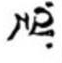ལྔ་
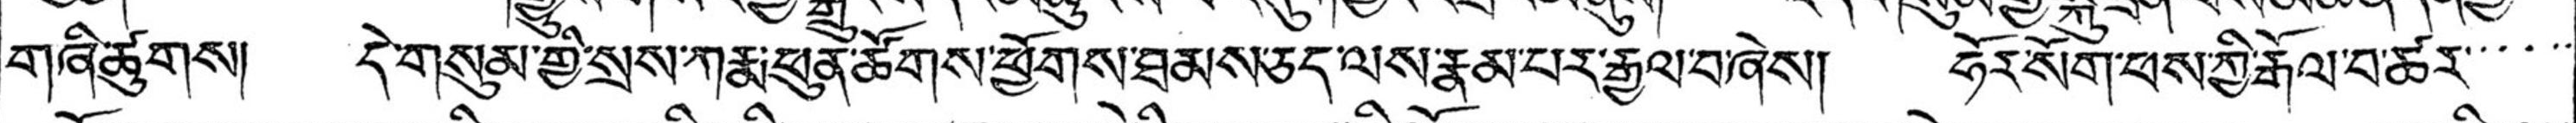གཞི་ཚུགས། དེ་གསུམ་གྱི་སྲས་ཀརྨ་ཕུན་ཚོགས་ཕྱོགས་ཐམས་ཅད་ལས་རྣམ་པར་རྒྱལ་བ་ཞེས། ཧོར་སོག་ཕས་ཀྱི་རྒོལ་བ་ཚར་་་་་་
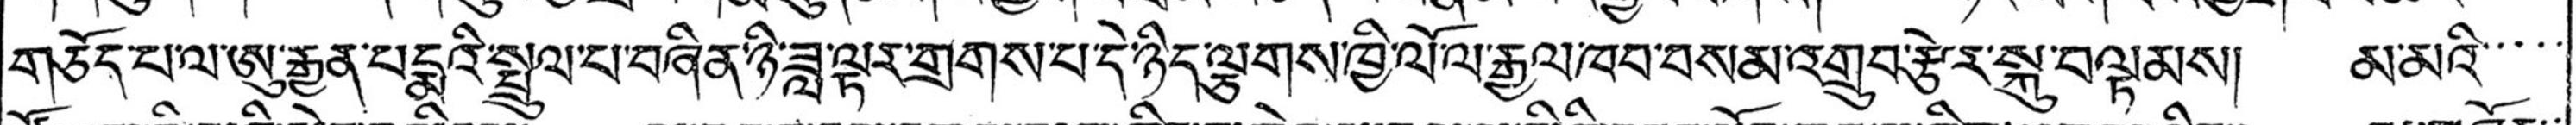གཅོད་པ་ལ་ཨུ་རྒྱན་པདྨའི་སྤྲུལ་པ་བཞིན་ཉི་ཟླ་ལྟར་གྲགས་པ་དེ་ཉིད་ལྕགས་ཁྱི་ལོ་ལ་རྒྱལ་ཁབ་བསམ་འགྲུབ་རྩེར་སྐུ་བལྟམས། མ་མའི་་་་་
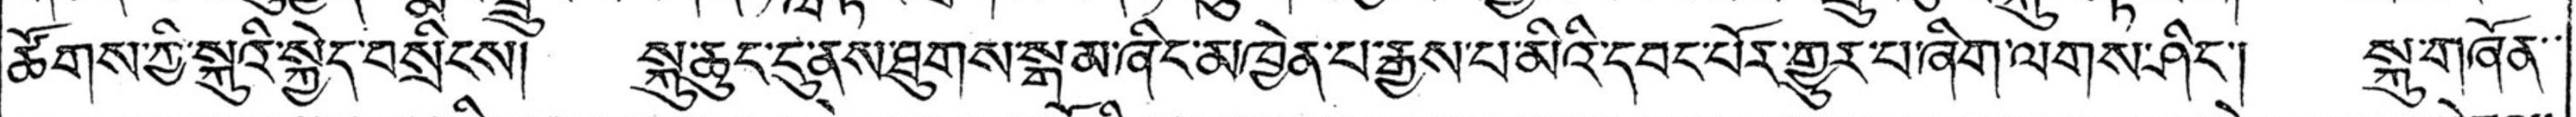ཚོགས་ཀྱི་སྐུའི་སྐྱེད་བསྲིངས། སྐུ་ཆུང་ངུ་ནས་ཐུགས་སྒམ་ཞིང་མཁྱེན་པ་རྒྱས་པ་མིའི་དབང་པོར་གྱུར་པ་ཞིག་ལགས་ཤིང་། སྐུ་གཞོན་་
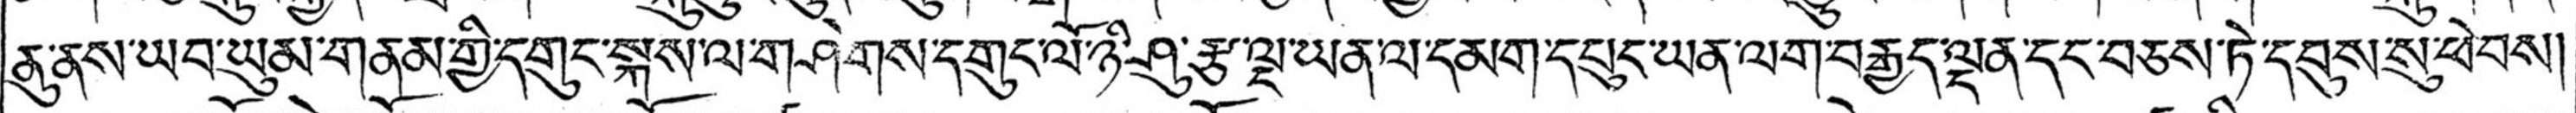ནུ་ནས་ཡབ་ཡུམ་གནམ་གྱི་དགུང་སྐས་ལ་གཤེགས་དགུང་ལོ་ཉི་ཤུ་རྩ་ལྔ་ཡན་ལ་དམག་དཔུང་ཡན་ལག་བརྒྱད་ལྡན་དང་བཅས་ཏེ་དབུས་སུ་ཕེུབས།
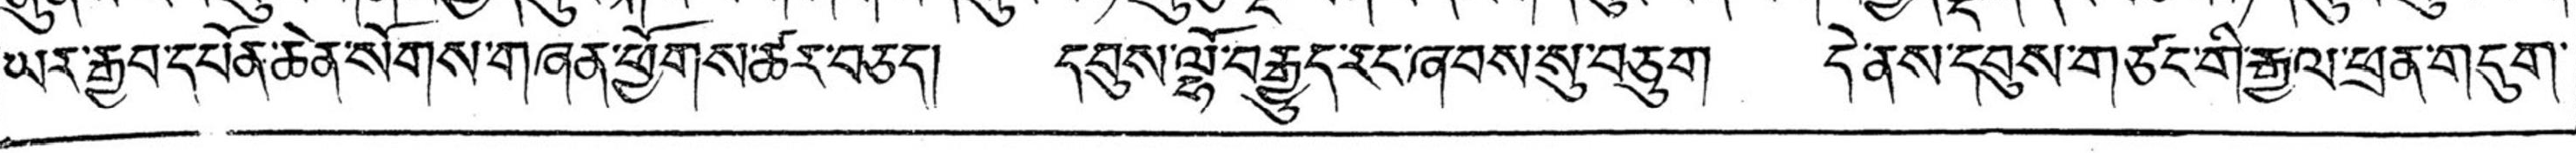ཡར་རྒྱབ་དཔོན་ཆེན་སོགས་གཞན་ཕྱོགས་ཚར་བཅད། དབུས་ལྷོ་བརྒྱུད་རང་ཞབས་སུ་བཅུག དེ་ནས་དབུས་གཙང་གི་རྒྱལ་ཕྲན་གདུག་
